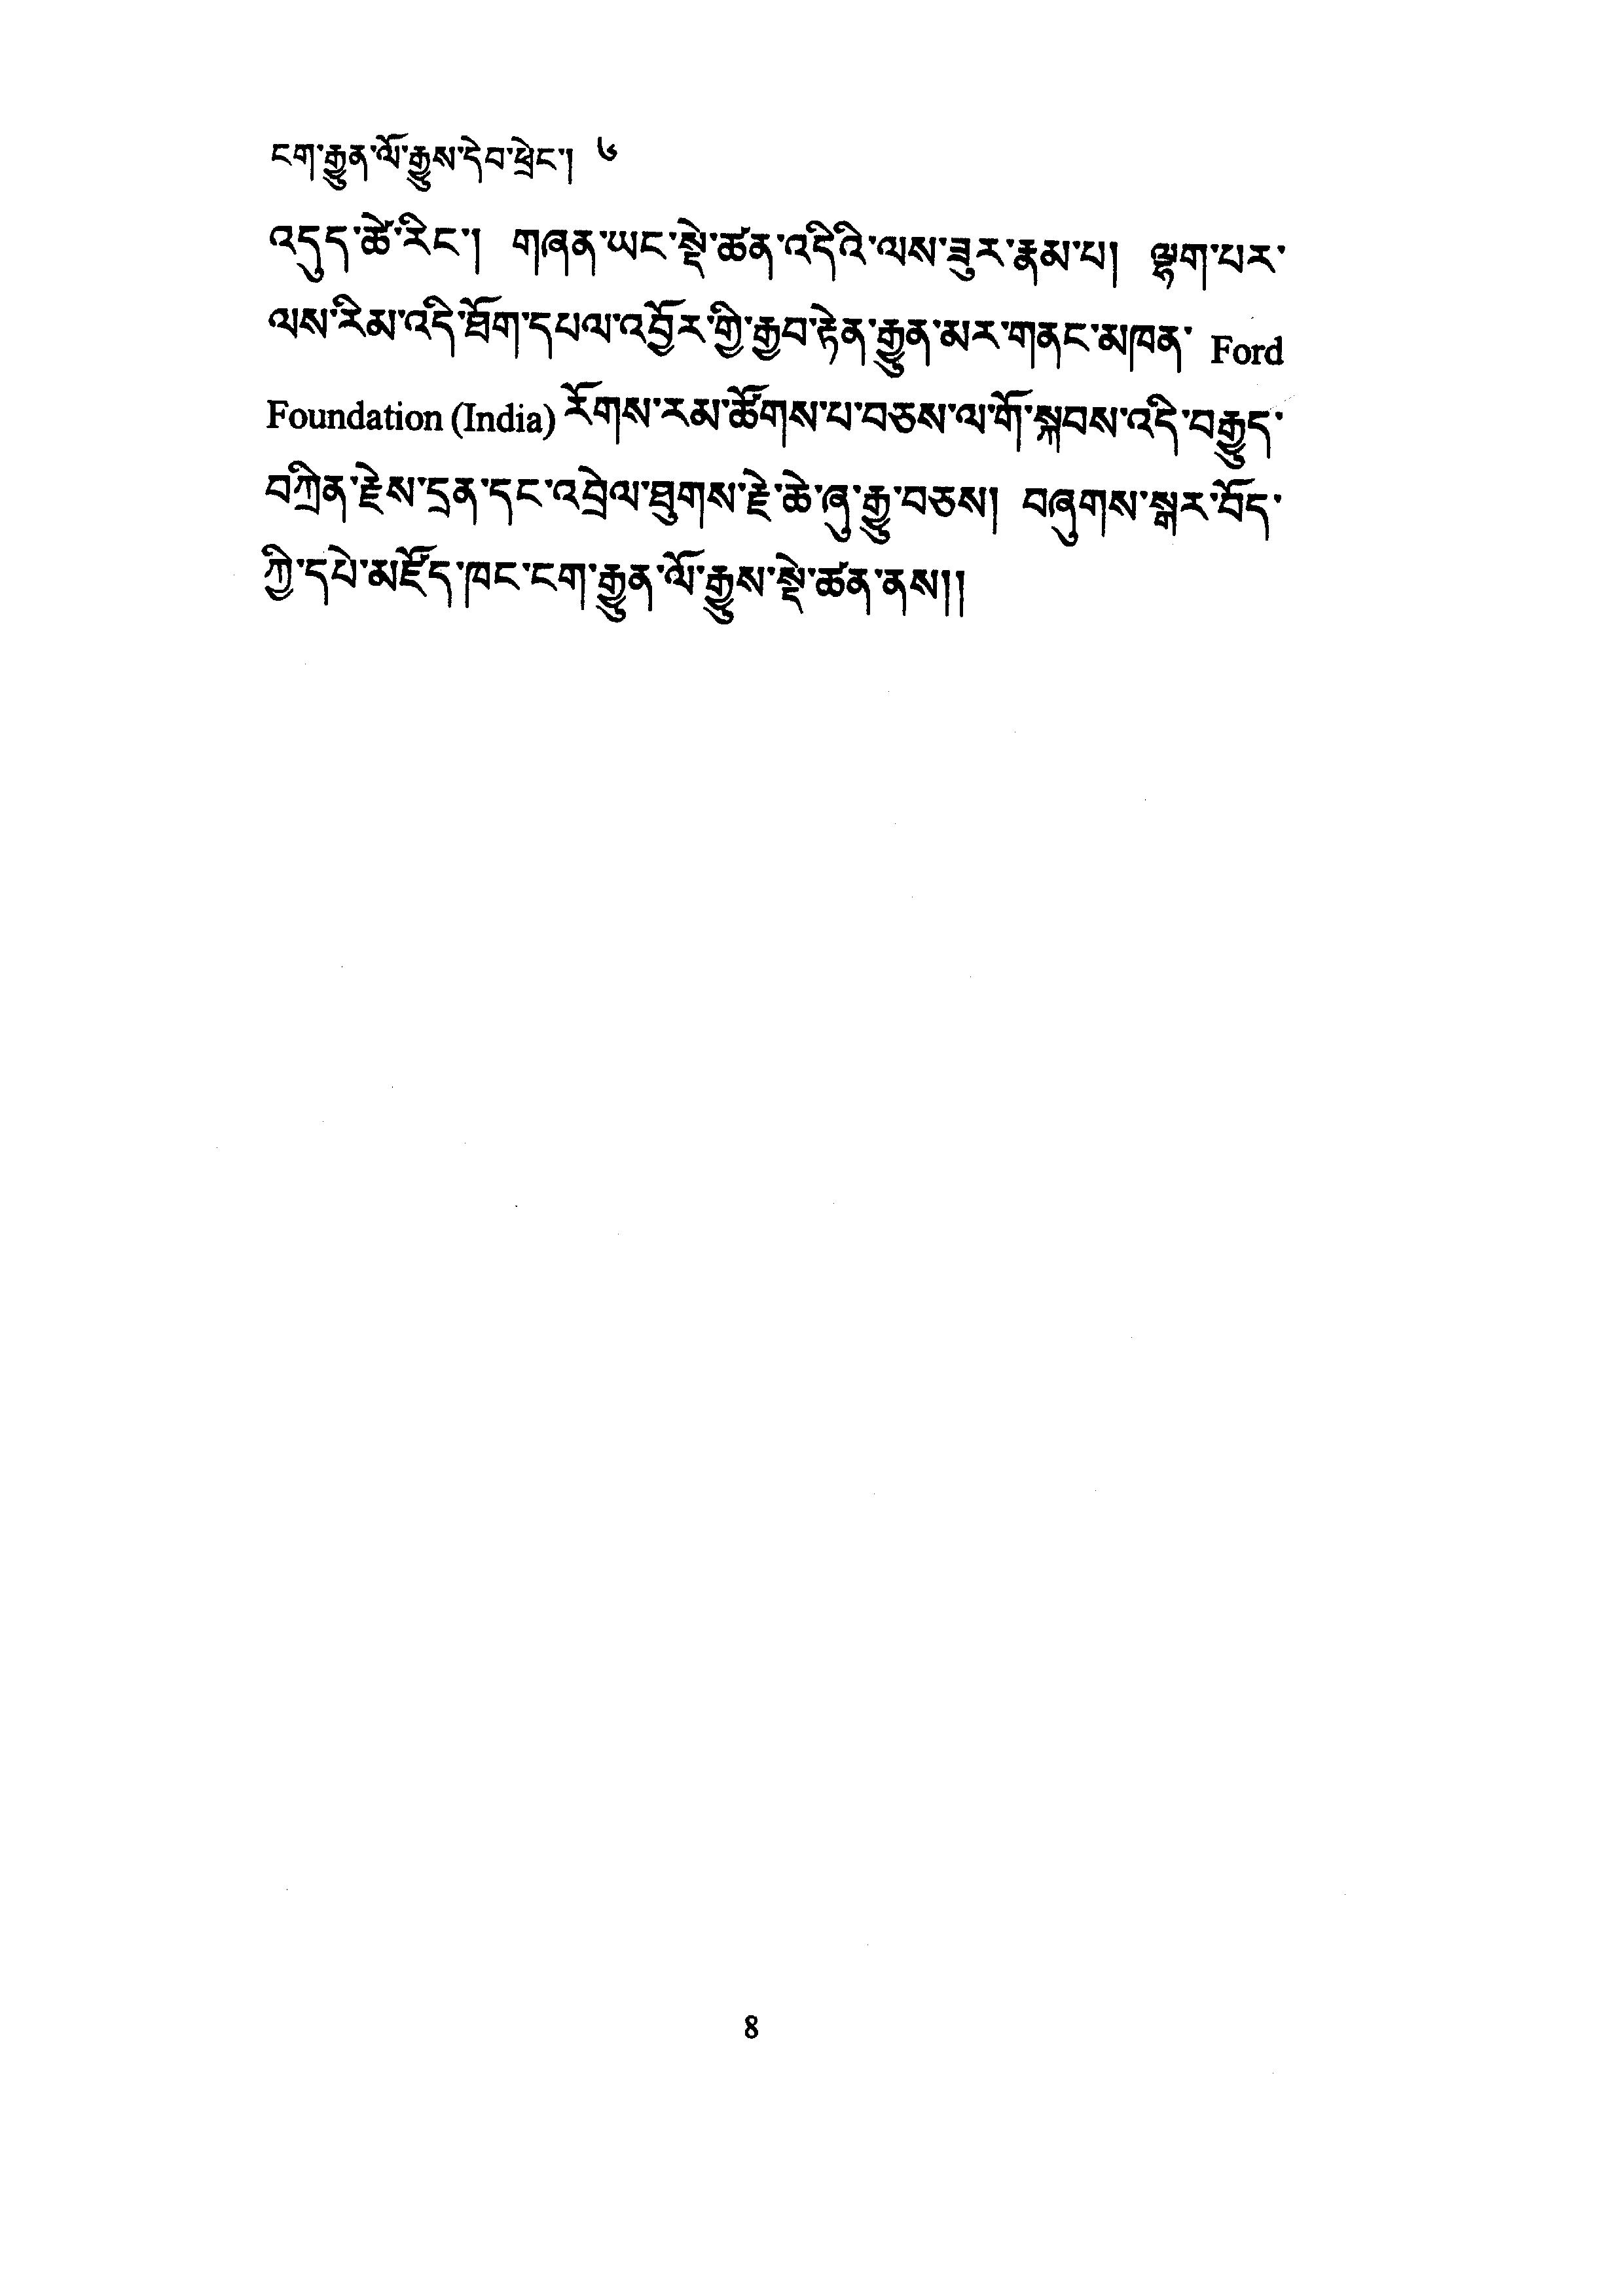ངག་རྒྱུན་ལོ་རྒྱུས་དེབ་ཕྲེང་། ༦
འདུད་ཚེ་རིང་། གཞན་ཡང་སྡེ་ཚན་འདིའི་ལས་ཟུར་རྣམ་པ། ལྷག་པར་
ལས་རིམ་འདི་ཐོག་དཔལ་འབྱོར་གྱི་རྒྱབ་རྟེན་རྒྱུན་མར་གནང་མཁན་ Ford
Foundation (India) རོགས་རམ་ཚོགས་པ་བཅས་ལ་གོ་སྐབས་འདི་བརྒྱུད་
བཀྲིན་རྗེས་དྲན་དང་འབྲེལ་ཐུགས་རྗེ་ཆེ་ཞུ་རྒྱུ་བཅས། བཞུགས་སྒར་བོད་
ཀྱི་དཔེ་མཛོད་ཁང་ངག་རྒྱུན་ལོ་རྒྱུས་སྡེ་ཚན་ནས༎
8
